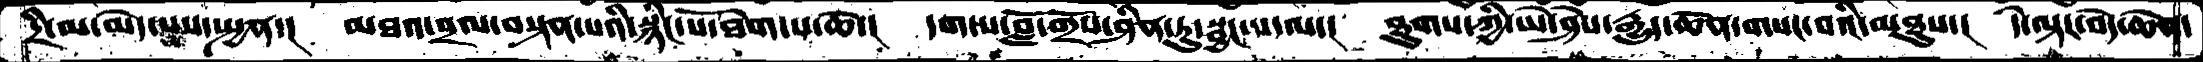དྲི་མ་མེད་པས་སྤྱན་།   མཐའ་བྲལ་བསྟན་པའི་སྙིང་པོ་ཐེག་པ་ཆེ་།  དག་པ་བློ་གྲོས་ཤིན་ཏུ་སྦྱང་པ་ལ་།   ཐུགས་ཀྱི་ཡེ་ཤེས་རྒྱུད་ཆོན་གསང་བའི་མཐུས་།  དེ་ལྟར་བདེ་ཆེན་
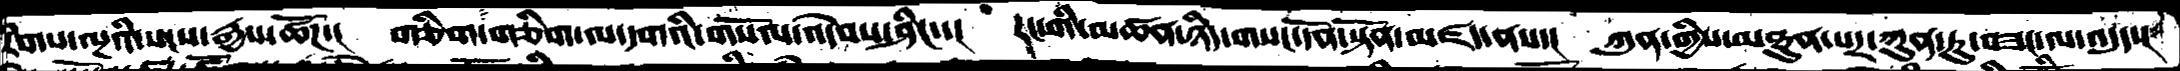རིགས་ལྔའི་སངས་རྒྱས་ཚོཌ་།   གཅིག་གཅིག་ལ་དགའི་གསོལ་འདེབས་ཤིང་་།  རང་གི་མཚན་ཉིད་གསང་དོན་སྟོན་མཛད་ནས་།  ཀུན་གྱིས་མཐུན་པར་ཀུན་ཏུ་བཟང་ལ་འདུད་།
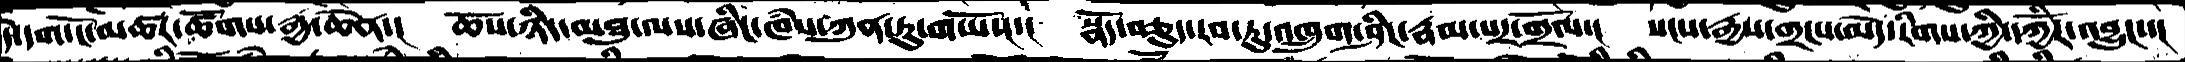དེ་དག་ངོ་མཚར་ཚོགས་རྒྱ་ཆེན་།  ཆོས་ཉིད་མཐུ་ལས་ཞིང་ཁཾས་ཀུན་ཏུ་གཡོ་།་།་  སྣོད་བཅུད་རབ་ཏུ་འཁྲུག་ཤིང་རྣམ་པར་གྲོལ་།  སངས་རྒྱས་གྱངས་མེད་རིགས་ཀྱི་དཀྱོིར་འབྱུང་་།
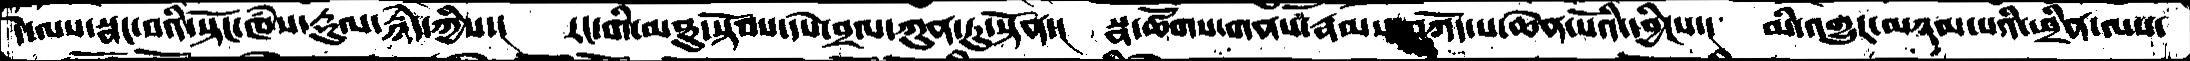དེ་ལས་སྣང་བའི་སྟོང་ཁཾས་རྡུལ་རྙེད་ཀྱིས་།   རང་གི་མཐུ་སྟོབས་དཔེ་བྲལ་ཀུན་ཏུ་སྟོན་།  སྣ་ཚོགས་གནས་རྣམ་བཀོད་པ་ཆེན་པོའི་དབྱིངས་།  མི་འགྱུར་མཉམ་པའི་ཕྲིན་ལས་
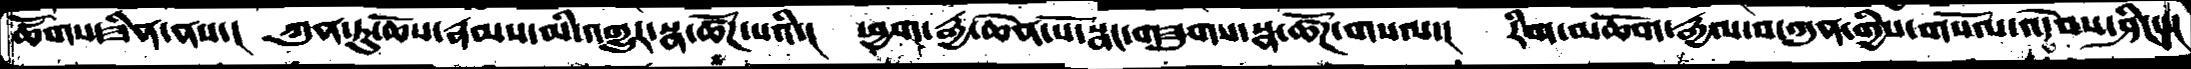ཚོགས་ཟིན་ནས་།  ཀུན་ཏུ་ཆོས་རྣམས་མི་འགྱུར་སྣ་ཚོཌ་པའི་།  ཕྱག་རྒྱ་ཆེན་པོ་སྣང་གཟུགས་སྣ་ཚོཌ་གསལ་།  རིག་མཆོག་རྒྱལ་བ་ཀུན་གྱིས་གསོལ་འདེབས་ཤིང་།
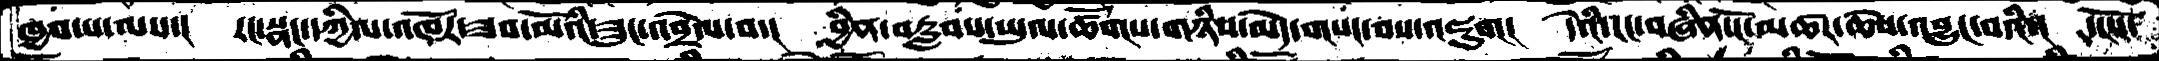ཁྱབ་པ་ལས་།  རང་སྣང་དཀྱིལ་འཁོར་ཟབ་མོའི་ཟུང་འབྲེལ་བ་།  བྱིན་བརླབས་ཡུལ་ཚོགས་གཉིས་མེད་གསང་བས་འཇུག།  དེའི་རང་བཞིན་ངོ་མཚར་ཆེས་འབྱུང་བའི་།  དངོས་
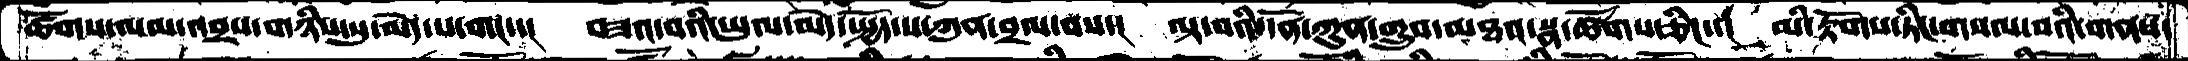ཚོགས་ལམ་འབྲས་གཉིས་སུ་མེད་པ་གང་་།  བཟའ་བའི་ཡུལ་མེད་སྤྱོད་པ་ཀུན་བྲལ་བས་།  ལྟ་བའི་དོན་ཀུན་གྲུབ་མཐའ་སྣ་ཚོགས་ཅིང་་།  མི་རྟོགས་ཏིང་གསལ་བའི་གནས་
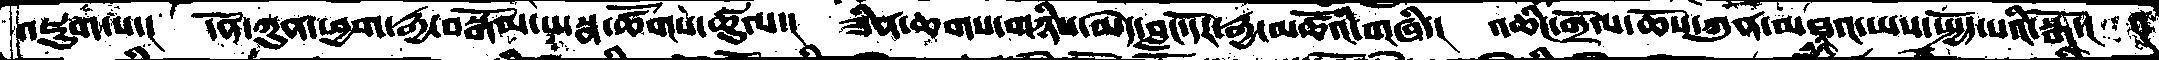འཇུག་པ་།  དོན་ཀུན་ཕྱག་རྒྱ་བསྒོམ་པ་སྣ་ཚོགས་ཚུལ་།  ཟིན་ཆགས་གཉིས་མེད་བླང་དོར་རྒྱ་མཚོའི་གཞི་།  འཆིང་གྲོལ་ཆོས་ཀུན་མཐའ་ཡས་སྤྱོད་པའི་སྒོ་།
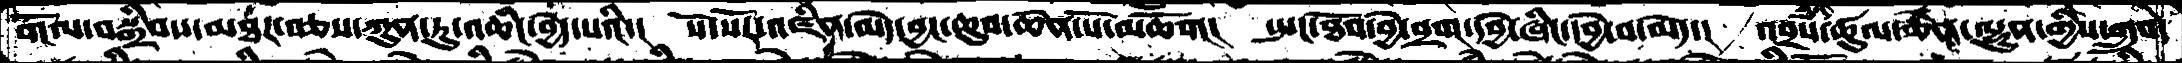གོལ་བསྒྲིབས་མཐར་བཅས་ཀུན་ཏུ་འཆིང་བྱེད་པའི་།   སོ་སོར་འཛིན་མེད་བྱང་ཆུབ་ཆེན་པོ་མཆོག།   སྤང་ཐོབ་བྱེ་བྲག་དབྱེ་ཞིང་དབྱེ་བ་མེད་།  འབྲས་ཚུལ་ཆེན་ལྷུན་གྱིས་གྲུབ་
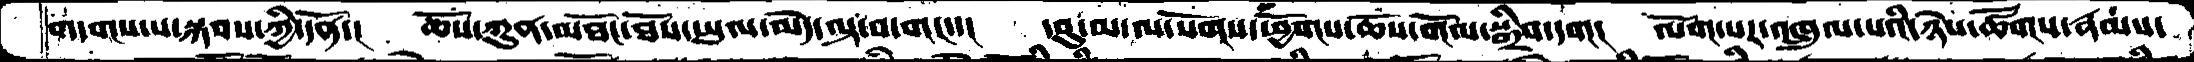གདགས་པ་སྐབས་ཀྱི་དོན་།  ཆོས་ཀུན་མཐོང་ཐོས་ཡུལ་མེད་ལྟ་བ་གང་་།  དབུ་མ་ལ་སོགས་ཕྱོགས་ཆོས་གོལ་སྒྲིབ་དག།  ལོག་པར་འཁྲུལ་པའི་ཉེས་ཚོགས་རྣམས་
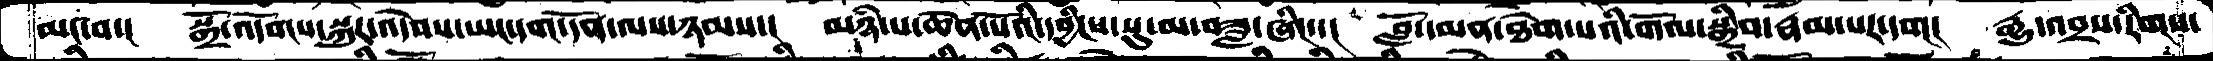མང་བ་།   སྒྲོ་འདོགས་སྐུར་འདེབས་ཡང་དག་དོན་ལས་ཉམས་།  མཉཾ་པ་ཆེན་པོའི་དབྱིངས་སུ་མ་བཟླ་ཞིང་་།  བློ་དམན་ཐེག་པའི་གོལ་སྒྲིབ་རྣམ་པར་དག།  རྒྱུ་འབྲས་རིགས་
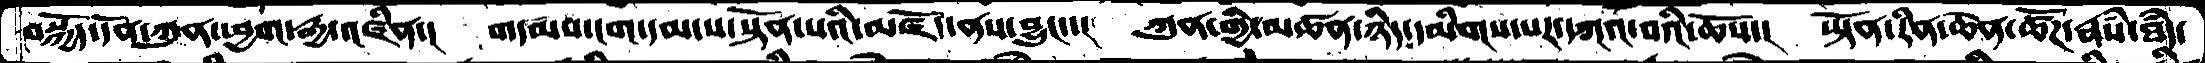བསྐྱོད་དོན་ཀུན་ཕྱག་རྒྱ་འཛིན་།  གདམས་ངག་དམ་པ་སྟོན་པའི་མཛོད་ནས་བྱུང་་།  ཀུན་གྱི་མཚན་ཉིད་དམིགས་པར་དཀའ་བའི་ཆོས་།  ཡྟོན་རིན་ཆེན་ཚོཌ་རྣཾས་ཐདཾ་
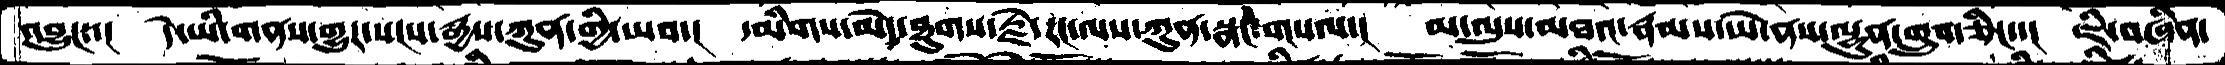འབྱུང་་།  དེ་ཡི་གནས་གྱུར་སངས་རྒྱས་ཀུན་གྱི་ཡབ་།  དམིགས་མེད་ཐུགས་རྗེ་རང་ལས་ཀུན་སྣང་གསལ་།  མ་ལུས་མཐའ་རྣམས་ཡེ་ནས་ལྷུན་གྲུབ་ཅིང་་།  ཇི་བཞིན་
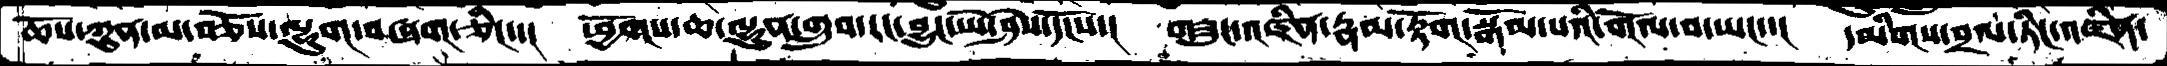ཆོས་ཀུན་མ་བཅོས་ལྷུག་བཞག་ཅིང་་།  ཕྱོགས་ཆ་ལྷུན་གྲུབ་རང་བྱུང་ཡེ་ཤེས་དངོས་།  གཟུང་འཛིན་རྣམ་རྟོག་སྒོམ་པའི་གོལ་བ་ཡང་།  དམིགས་བྲལ་ཏིང་འཛིན་
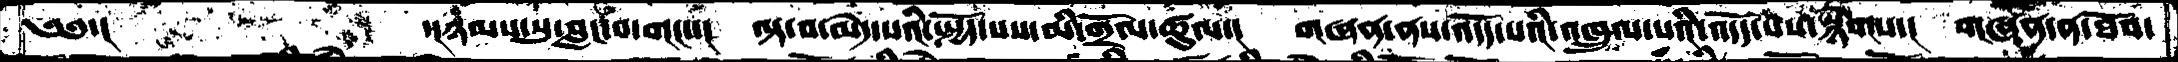༄༅་།     ་།ཉམས་སུ་བླང་བ་གང་་།  ལྟ་བ་མེད་པའི་སྤྱོད་པས་མི་གྲོལ་ཚུལ་།  གཞན་ནས་འདོད་པའི་འཁྲུལ་པའི་འདོད་པས་སྙེགས་།  གཞན་ན་ཐོབ་
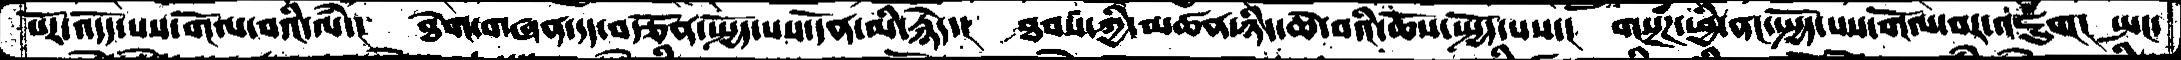པོར་འདོད་པས་གོལ་བའི་ལཾ་།  ཐེག་གཞན་དད་བརྩོན་སྤྱོད་པས་དོན་མི་རྙེད་།  ཐབས་ཀྱི་མཚན་ཉིད་ཆེ་བའི་ཆོས་སྤྱོད་པས་།  གསྔཾཌ་ཕྱི་ནང་སྤྱོད་པས་གོལ་བར་འཇུག།  སྤང་
